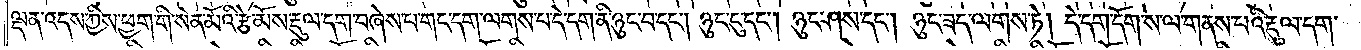ལྡན་འདས་ཀྱིས་ཕྱག་གི་སེན་མོའི་རྩེ་མོས་རྡུལ་དག་བཞེས་པ་གང་དག་ལགས་པ་དེ་དག་ནི་ཉུང་བ་དང༌། ཉུང་ངུ་དང༌། ཉུང་ཤས་དང༌། ཉུང་ཟད་ལགས་ཏེ། དེ་དག་དོག་ས་ལ་གནས་པའི་རྡུལ་དག་
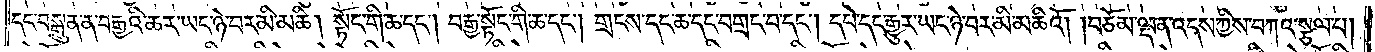དང་བསྒྲུན་ན་བརྒྱའི་ཆར་ཡང་ཉེ་བར་མི་མཆི། སྟོང་གི་ཆ་དང༌། བརྒྱ་སྟོང་གི་ཆ་དང༌། གྲངས་དང་ཆ་དང་བགྲང་བ་དང༌། དཔེ་དང་རྒྱུར་ཡང་ཉེ་བར་མི་མཆིའོ། །བཅོམ་ལྡན་འདས་ཀྱིས་བཀའ་སྩལ་པ།
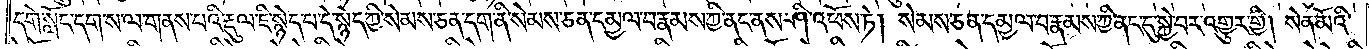དགེ་སློང་དག་ས་ལ་གནས་པའི་རྡུལ་ཇི་སྙེད་པ་དེ་སྙེད་ཀྱི་སེམས་ཅན་དག་ནི་སེམས་ཅན་དམྱལ་བ་རྣམས་ཀྱི་ནང་ནས་ཤི་འཕོས་ཏེ། སེམས་ཅན་དམྱལ་བ་རྣམས་ཀྱི་ནང་དུ་སྐྱེ་བར་འགྱུར་གྱི། སེན་མོའི་
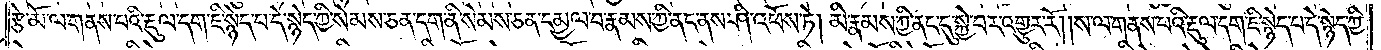རྩེ་མོ་ལ་གནས་པའི་རྡུལ་དག་ཇི་སྙེད་པ་དེ་སྙེད་ཀྱི་སེམས་ཅན་དག་ནི་སེམས་ཅན་དམྱལ་བ་རྣམས་ཀྱི་ནང་ནས་ཤི་འཕོས་ཏེ། མི་རྣམས་ཀྱི་ནང་དུ་སྐྱེ་བར་འགྱུར་རོ། །ས་ལ་གནས་པའི་རྡུལ་དག་ཇི་སྙེད་པ་དེ་སྙེད་ཀྱི་
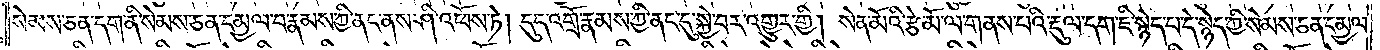སེམས་ཅན་དག་ནི་སེམས་ཅན་དམྱལ་བ་རྣམས་ཀྱི་ནང་ནས་ཤི་འཕོས་ཏེ། དུད་འགྲོ་རྣམས་ཀྱི་ནང་དུ་སྐྱེ་བར་འགྱུར་གྱི། སེན་མོའི་རྩེ་མོ་ལ་གནས་པའི་རྡུལ་དག་ཇི་སྙེད་པ་དེ་སྙེད་ཀྱི་སེམས་ཅན་དམྱལ་
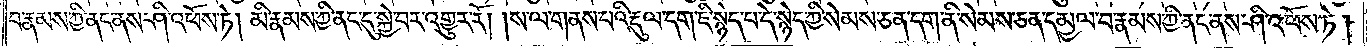བ་རྣམས་ཀྱི་ནང་ནས་ཤི་འཕོས་ཏེ། མི་རྣམས་ཀྱི་ནང་དུ་སྐྱེ་བར་འགྱུར་རོ། །ས་ལ་གནས་པའི་རྡུལ་དག་ཇི་སྙེད་པ་དེ་སྙེད་ཀྱི་སེམས་ཅན་དག་ནི་སེམས་ཅན་དམྱལ་བ་རྣམས་ཀྱི་ནང་ནས་ཤི་འཕོས་ཏེ།
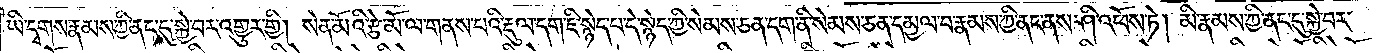ཡི་དྭགས་རྣམས་ཀྱི་ནང་དུ་སྐྱེ་བར་འགྱུར་གྱི། སེན་མོའི་རྩེ་མོ་ལ་གནས་པའི་རྡུལ་དག་ཇི་སྙེད་པ་དེ་སྙེད་ཀྱི་སེམས་ཅན་དག་ནི་སེམས་ཅན་དམྱལ་བ་རྣམས་ཀྱི་ནང་ནས་ཤི་འཕོས་ཏེ། མི་རྣམས་ཀྱི་ནང་དུ་སྐྱེ་བར་
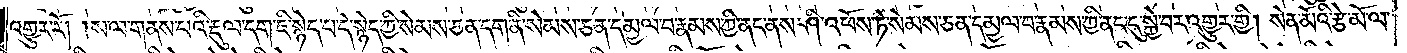འགྱུར་རོ། །ས་ལ་གནས་པའི་རྡུལ་དག་ཇི་སྙེད་པ་དེ་སྙེད་ཀྱི་སེམས་ཅན་དག་ནི་སེམས་ཅན་དམྱལ་བ་རྣམས་ཀྱི་ནང་ནས་ཤི་འཕོས་ཏེ་སེམས་ཅན་དམྱལ་བ་རྣམས་ཀྱི་ནང་དུ་སྐྱེ་བར་འགྱུར་གྱི། སེན་མོའི་རྩེ་མོ་ལ་
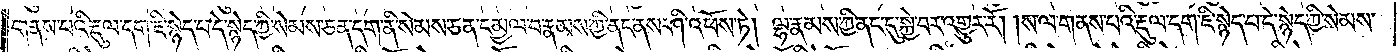གནས་པའི་རྡུལ་དག་ཇི་སྙེད་པ་དེ་སྙེད་ཀྱི་སེམས་ཅན་དག་ནི་སེམས་ཅན་དམྱལ་བ་རྣམས་ཀྱི་ནང་ནས་ཤི་འཕོས་ཏེ། ལྷ་རྣམས་ཀྱི་ནང་དུ་སྐྱེ་བར་འགྱུར་རོ། །ས་ལ་གནས་པའི་རྡུལ་དག་ཇི་སྙེད་པ་དེ་སྙེད་ཀྱི་སེམས་
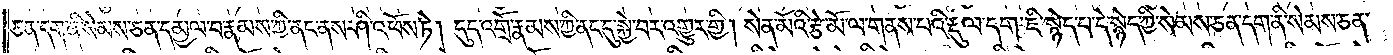ཅན་དག་ནི་སེམས་ཅན་དམྱལ་བ་རྣམས་ཀྱི་ནང་ནས་ཤི་འཕོས་ཏེ། དུད་འགྲོ་རྣམས་ཀྱི་ནང་དུ་སྐྱེ་བར་འགྱུར་གྱི། སེན་མོའི་རྩེ་མོ་ལ་གནས་པའི་རྡུལ་དག་ཇི་སྙེད་པ་དེ་སྙེད་ཀྱི་སེམས་ཅན་དག་ནི་སེམས་ཅན་
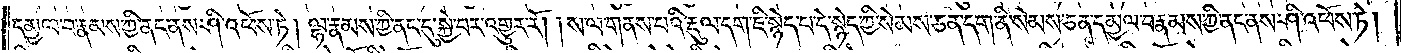དམྱལ་བ་རྣམས་ཀྱི་ནང་ནས་ཤི་འཕོས་ཏེ། ལྷ་རྣམས་ཀྱི་ནང་དུ་སྐྱེ་བར་འགྱུར་རོ། །ས་ལ་གནས་པའི་རྡུལ་དག་ཇི་སྙེད་པ་དེ་སྙེད་ཀྱི་སེམས་ཅན་དག་ནི་སེམས་ཅན་དམྱལ་བ་རྣམས་ཀྱི་ནང་ནས་ཤི་འཕོས་ཏེ།
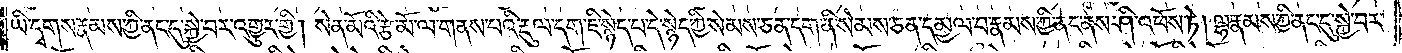ཡི་དྭགས་རྣམས་ཀྱི་ནང་དུ་སྐྱེ་བར་འགྱུར་གྱི། སེན་མོའི་རྩེ་མོ་ལ་གནས་པའི་རྡུལ་དག་ཇི་སྙེད་པ་དེ་སྙེད་ཀྱི་སེམས་ཅན་དག་ནི་སེམས་ཅན་དམྱལ་བ་རྣམས་ཀྱི་ནང་ནས་ཤི་འཕོས་ཏེ། ལྷ་རྣམས་ཀྱི་ནང་དུ་སྐྱེ་བར་
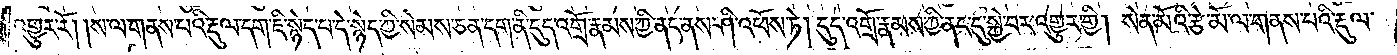འགྱུར་རོ། །ས་ལ་གནས་པའི་རྡུལ་དག་ཇི་སྙེད་པ་དེ་སྙེད་ཀྱི་སེམས་ཅན་དག་ནི་དུད་འགྲོ་རྣམས་ཀྱི་ནང་ནས་ཤི་འཕོས་ཏེ། དུད་འགྲོ་རྣམས་ཀྱི་ནང་དུ་སྐྱེ་བར་འགྱུར་གྱི། སེན་མོའི་རྩེ་མོ་ལ་གནས་པའི་རྡུལ་
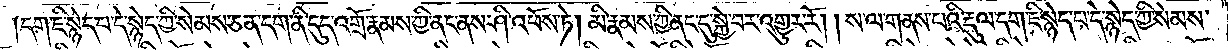དག་ཇི་སྙེད་པ་དེ་སྙེད་ཀྱི་སེམས་ཅན་དག་ནི་དུད་འགྲོ་རྣམས་ཀྱི་ནང་ནས་ཤི་འཕོས་ཏེ། མི་རྣམས་ཀྱི་ནང་དུ་སྐྱེ་བར་འགྱུར་རོ། །ས་ལ་གནས་པའི་རྡུལ་དག་ཇི་སྙེད་པ་དེ་སྙེད་ཀྱི་སེམས་
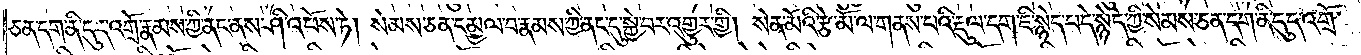ཅན་དག་ནི་དུད་འགྲོ་རྣམས་ཀྱི་ནང་ནས་ཤི་འཕོས་ཏེ། སེམས་ཅན་དམྱལ་བ་རྣམས་ཀྱི་ནང་དུ་སྐྱེ་བར་འགྱུར་གྱི། སེན་མོའི་རྩེ་མོ་ལ་གནས་པའི་རྡུལ་དག་ཇི་སྙེད་པ་དེ་སྙེད་ཀྱི་སེམས་ཅན་དག་ནི་དུད་འགྲོ་
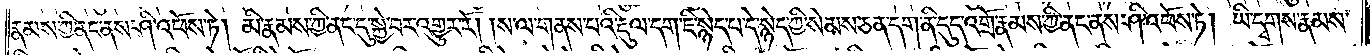རྣམས་ཀྱི་ནང་ནས་ཤི་འཕོས་ཏེ། མི་རྣམས་ཀྱི་ནང་དུ་སྐྱེ་བར་འགྱུར་རོ། །ས་ལ་གནས་པའི་རྡུལ་དག་ཇི་སྙེད་པ་དེ་སྙེད་ཀྱི་སེམས་ཅན་དག་ནི་དུད་འགྲོ་རྣམས་ཀྱི་ནང་ནས་ཤི་འཕོས་ཏེ། ཡི་དྭགས་རྣམས་
